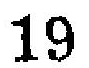19
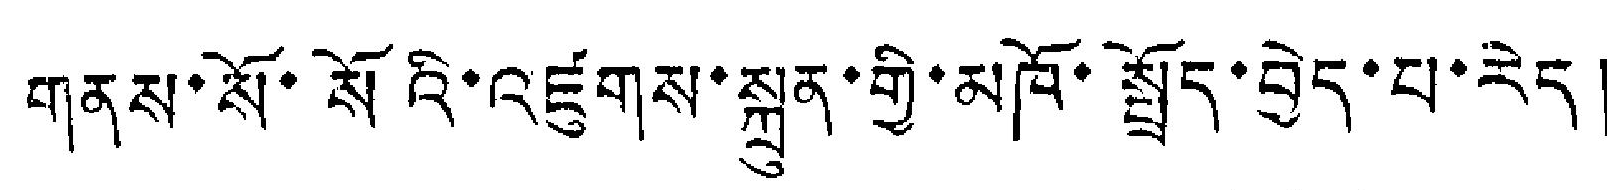གནས་སོ་སོའི་འཛུགས་སྐྲུན་གྱི་མཁོ་སྤྲོད་བྱེད་པ་རེད།
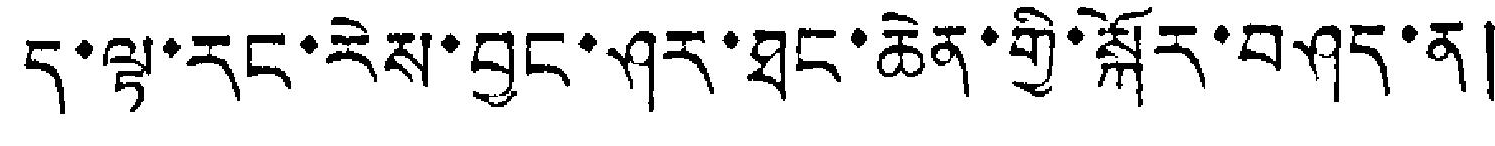ད་ལྟ་རང་རེས་བྱང་ཤར་ཐང་ཆེན་གྱི་སྐོར་བཤད་ན།
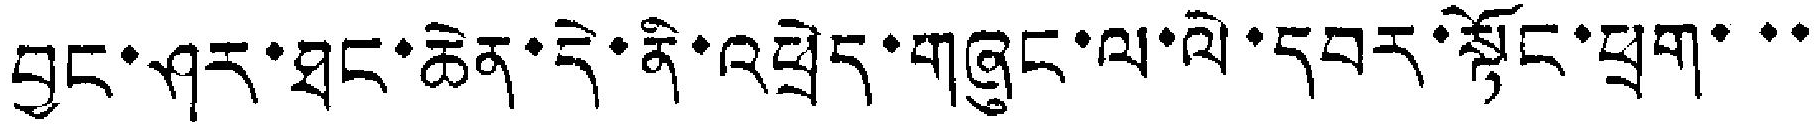བྱང་ཤར་ཐང་ཆེན་དེ་ནི་འཕྲེད་གཞུང་ལ་ལེ་དབར་སྟོང་ཕྲག་་་
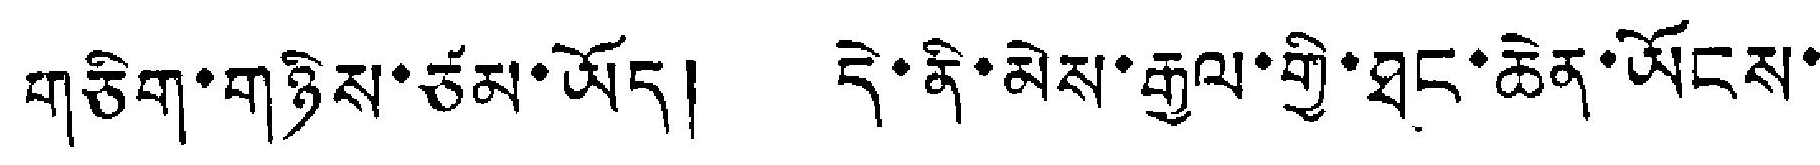གཅིག་གཉིས་ཙམ་ཡོད། དེ་ནི་མེས་རྒྱལ་གྱི་ཐང་ཆེན་ཡོངས་
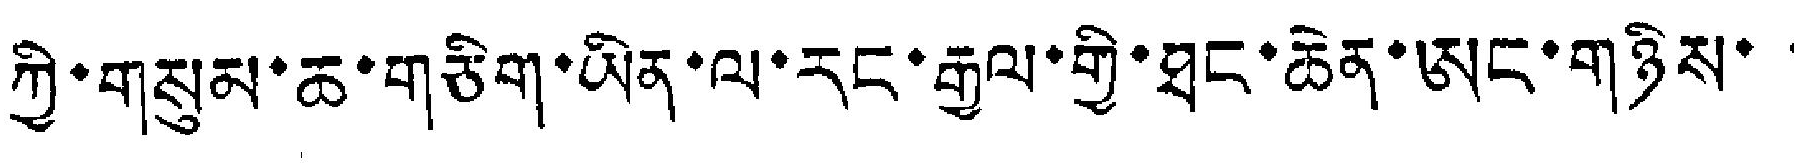ཀྱི་གསུམ་ཆ་གཅིག་ཡིན་ལ་རང་རྒྱལ་གྱི་ཐང་ཆེན་ཨང་གཉིས་་
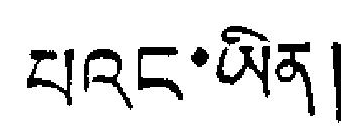པའང་ཡིན།
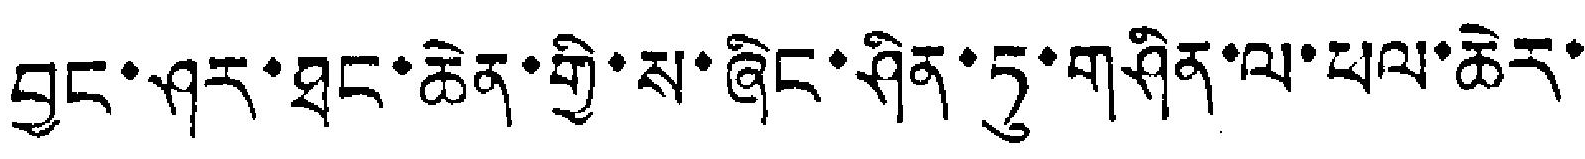བྱང་ཤར་ཐང་ཆེན་གྱི་ས་ཞིང་ཤིན་ཏུ་གཤིན་ལ་ཕལ་ཆེར་
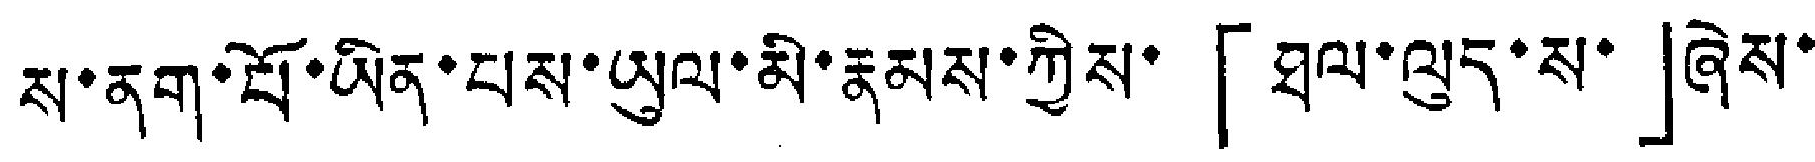ས་ནག་པོ་ཡིན་པས་ཡུལ་མི་རྣམས་ཀྱིས་「ཐལ་ལུད་ས་」ཞེས་
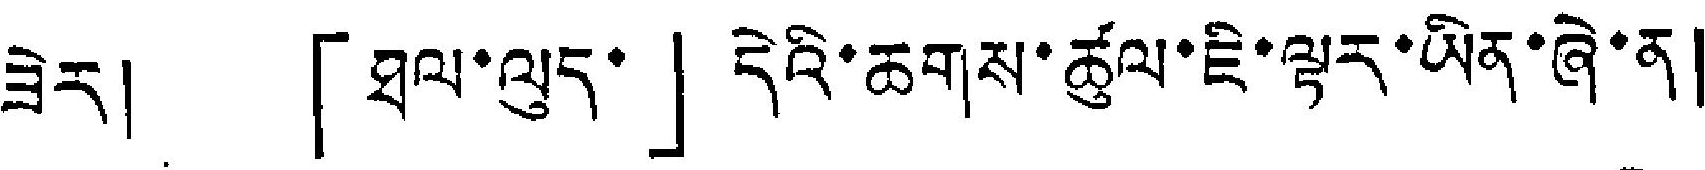ཟེར། 「ཐལ་ལུད་」དེའི་ཆགས་ཚུལ་ཇི་ལྟར་ཡིན་ཞེ་ན།
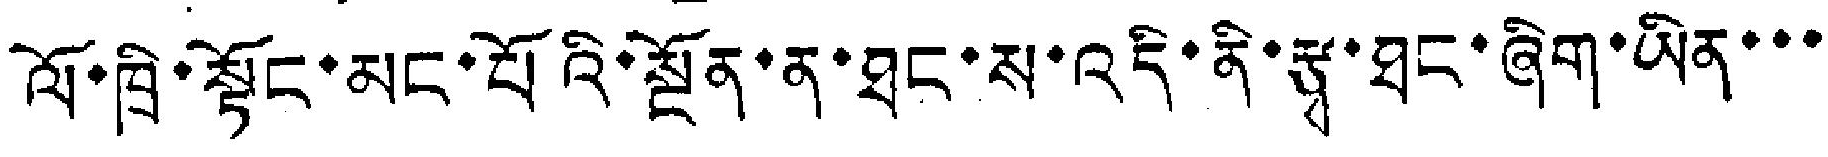ལོ་ཁྲི་སྟོང་མང་པོའི་སྔོན་ན་ཐང་ས་འདི་ནི་རྩྭ་ཐང་ཞིག་ཡིན་་་
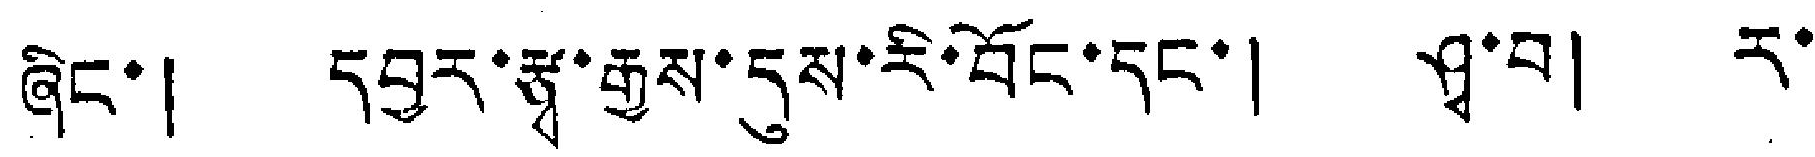ཞིང་། དབྱར་རྩྭ་རྒྱས་དུས་རི་བོང་དང་། ཤྭ་བ། ར་
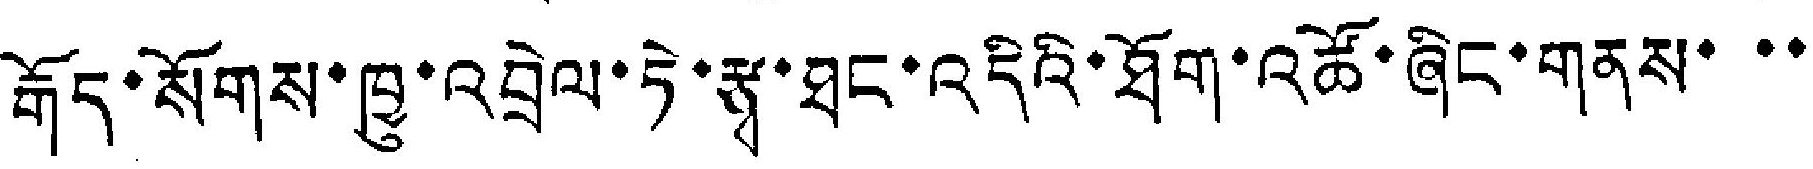རྒོད་སོགས་ཁྱུ་འབྲེལ་ཏེ་རྩྭ་ཐང་འདིའི་ཐོག་འཚོ་ཞིང་གནས་་་
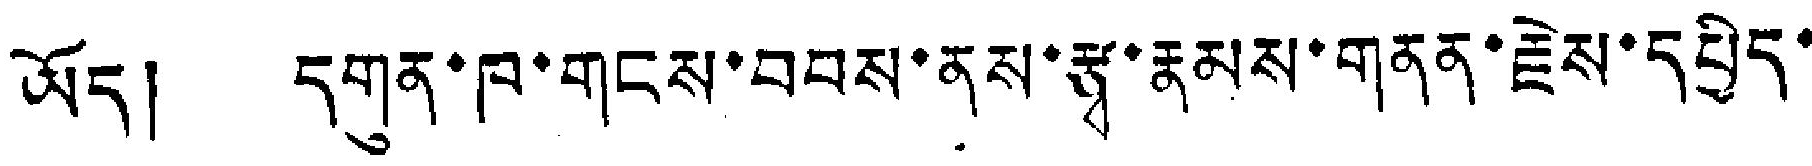ཡོད། དགུན་ཁ་གངས་བབས་ནས་རྩྭ་རྣམས་གནན་རྗེས་དཔྱིད་
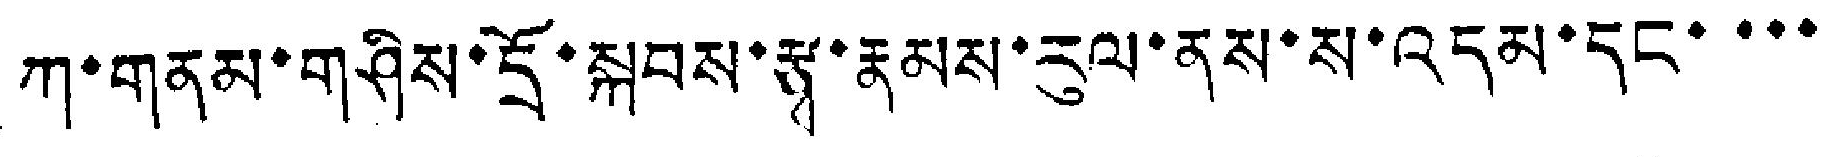ཀ་གནམ་གཤིས་དྲོ་སྐབས་རྩྭ་རྣམས་རུལ་ནས་ས་འདམ་དང་་་་
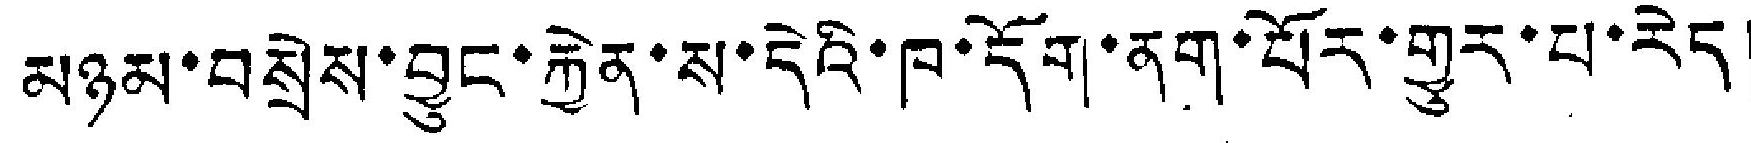མཉམ་བསྲེས་བྱུང་རྐྱེན་ས་དེའི་ཁ་དོག་ནག་པོར་གྱུར་པ་རེད།
